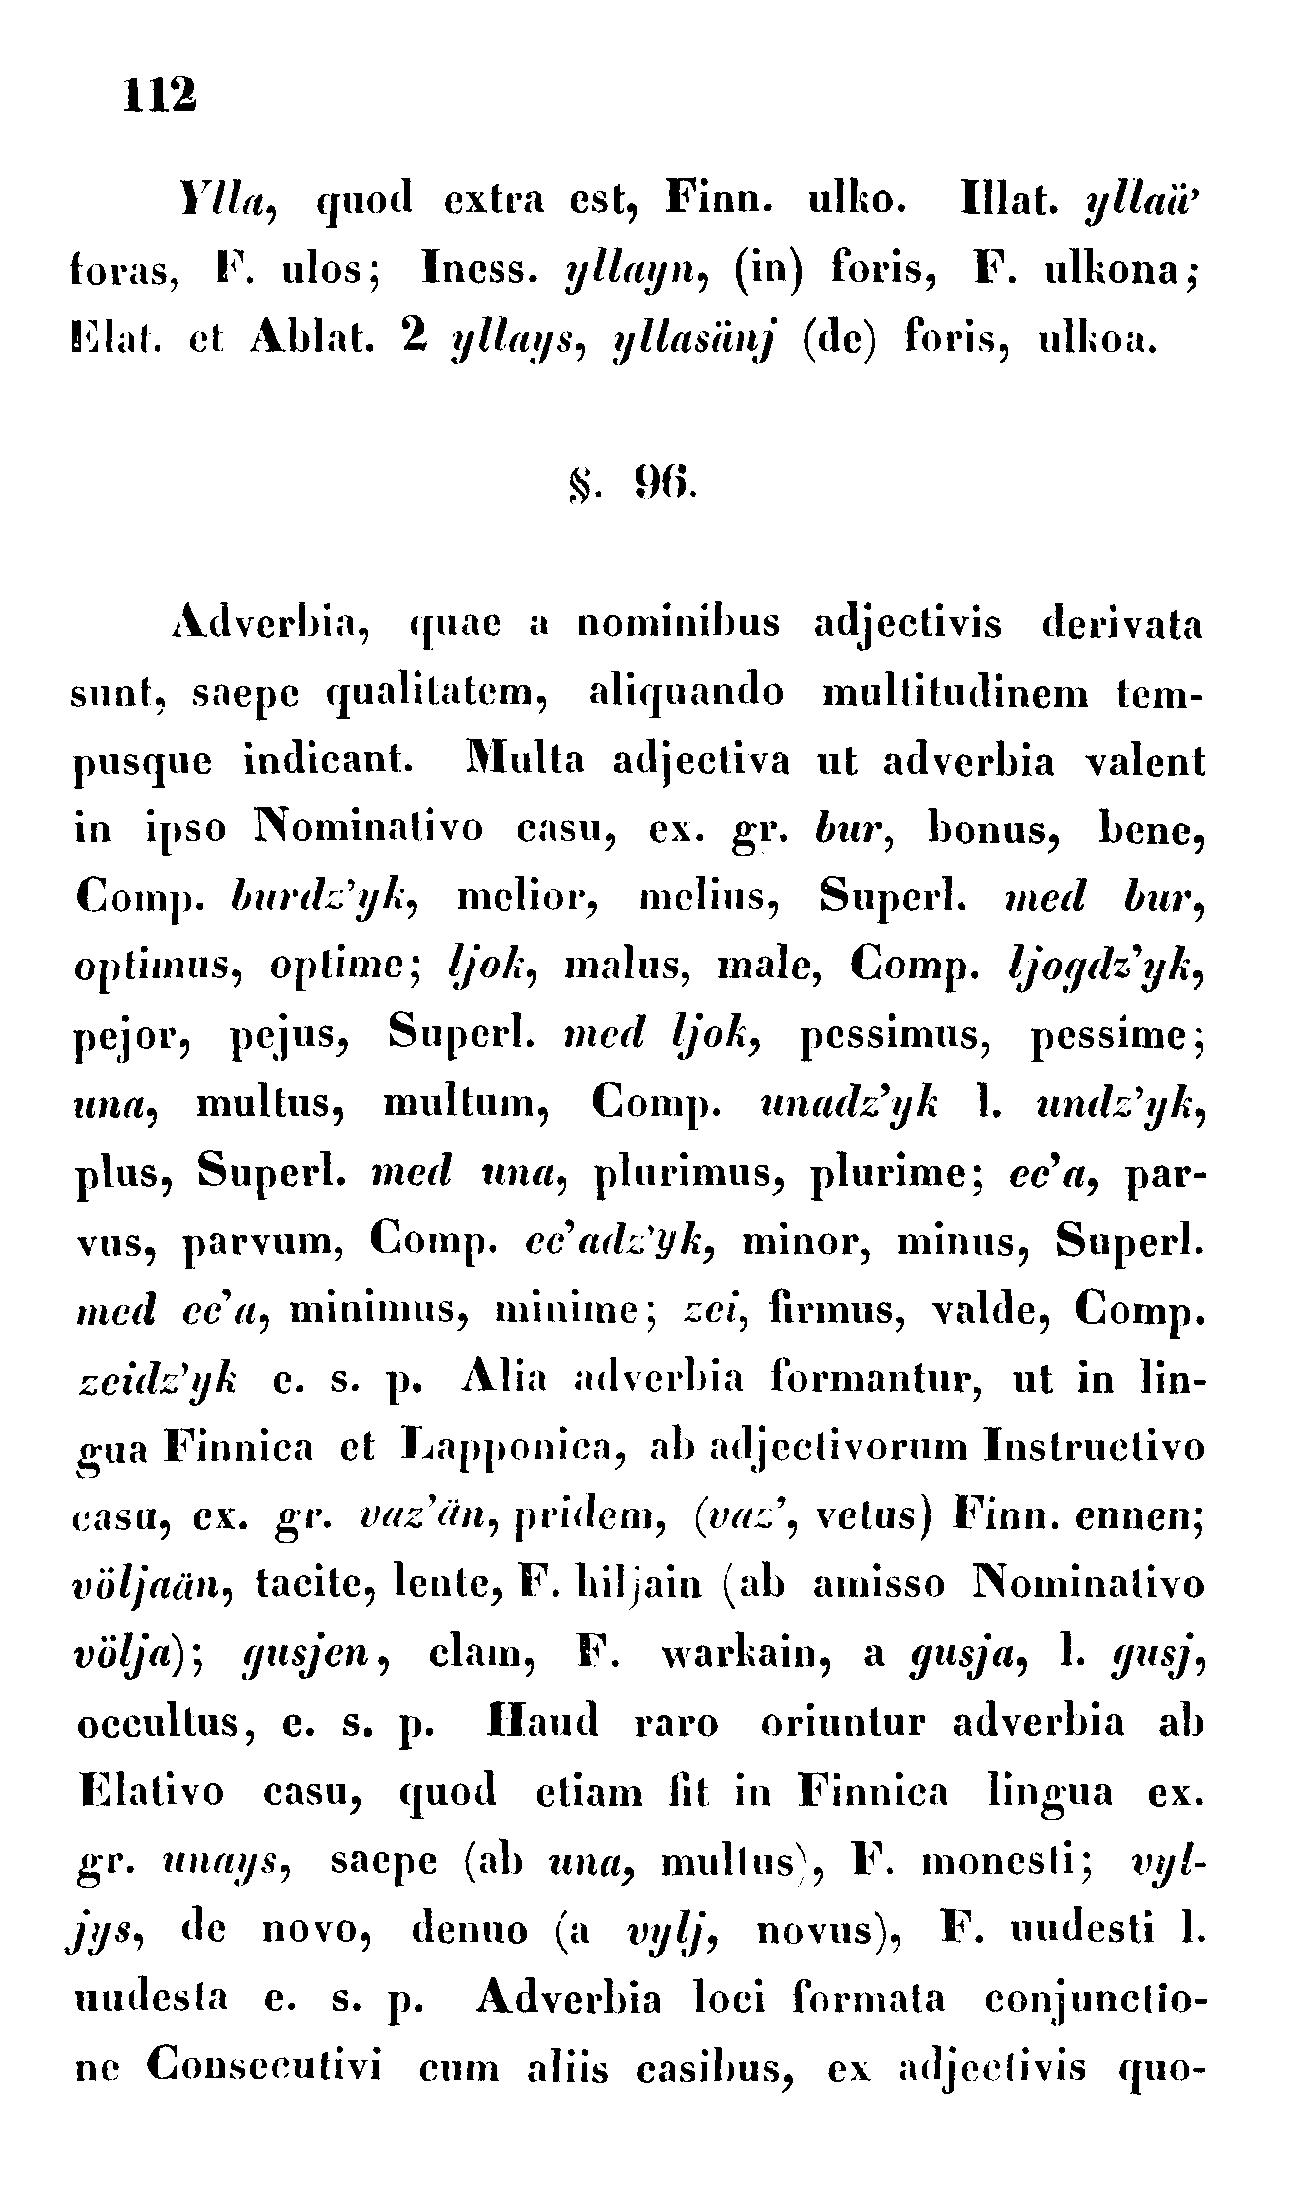112
Ylla, quod extra est, Finn. ulko. Illat. yllaä'
foras, F. ulos; Iness. yllayn, (in) foris, F. ulkona;
Elat. et Ablat. 2 yllays, yllasänj (de) foris, ulkoa.
§. 96.
Adverbia, quae a nominibus adjectivis derivata
sunt, saepe qualitatem, aliquando multitudinem tem-
pusque indicant. Multa adjectiva ut adverbia valent
in ipso Nominativo casu, ex. gr. bur, bonus, bene,
Comp. burdz'yk, melior, melius, Superl. med bur,
optimus, optime; ljok, malus, male, Comp. ljogdz'yk,
pejor, pejus, Superl. med ljok, pessimus, pessime;
una, multus, multum, Comp. unadz'yk l. undz'yk,
plus, Superl. med una, plurimus, plurime; ec'a, par-
vus, parvum, Comp. ec'adz'yk, minor, minus, Superl.
med ec'a, minimus, minime; zei, firmus, valde, Comp.
zeidz'yk e. s. p. Alia adverbia formantur, ut in lin-
gua Finnica et Lapponica, ab adjectivorum Instructivo
casu, ex. gr. vaz'än, pridem, (vaz', vetus) Finn. ennen;
völjaän, tacite, lente, F. hiljain (ab amisso Nominativo
völja); gusjen, clam, F. warkain, a gusja, l. gusj,
occultus, e. s. p. Haud raro oriuntur adverbia ab
Elativo casu, quod etiam fit in Finnica lingua ex.
gr. unays, saepe (ab una, mullus), F. monesti; vyl-
jys, de novo, denuo (a vylj, novus), F. uudesti l.
uudesta e. s. p. Adverbia loci formata conjunctio-
ne Consecutivi cum aliis casibus, ex adjectivis quo-
